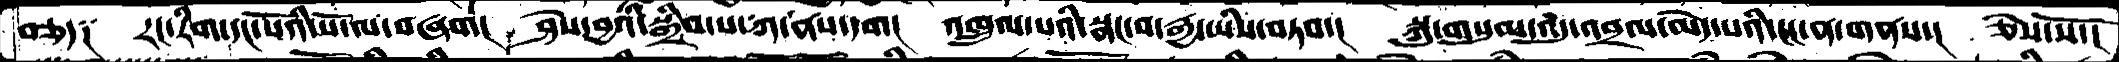བཅད༑  རང་རིག་དང་པོའི་སོ་ལ་བཞག།  ཤེས་བྱའི་སྒྲིབ་པ་ཀ་ནས་དག།  འཁྲུལ་པའི་སྣང་བ་རྒྱ་ཡིས་བཏབ་།  སྐུ་གསུམ་འདུ་འབྲལ་མེད་པའི་ངང་ན་གནས་།  ཅེས་སོ་།
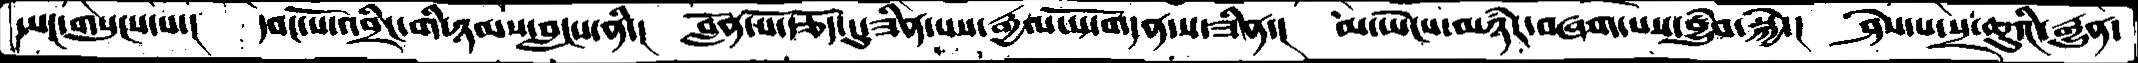ཡང་གསུངས་པ་།  དབང་པོ་འབྲིང་གི་ཉམས་བླངས་ནི་།  བློན་པོ་རྩོད་དུ་ཟིན་པས་རྒྱལ་པོ་གདན་ས་ཟིན་།  མ་ཡེངས་མཉཾར་བཞག་པས་བྱུཾབ་སྐྱེ་།  ཤེས་པ་སྲ་ཆུའི་རྒྱུན་
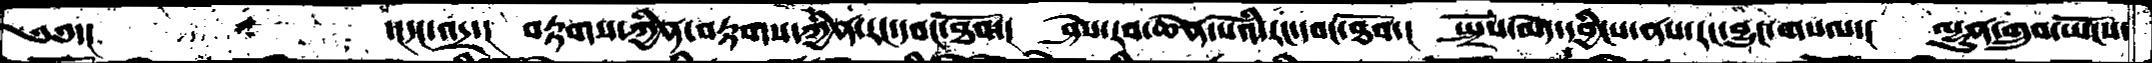༄༅་།       ་།དང་འདྲ་།  བརྟགས་ཀྱིན་བརྟགས་ཀྱིན་རང་དབང་ཐོབ་།   ཤེས་རབ་ཆེན་པོའི་རང་དབང་ཐོབ་།  སྤྲོས་མེད་དབྱིངས་ནས་རང་བྱུང་གསལ་།  ལྷུན་གྲུབ་ཡོངས་
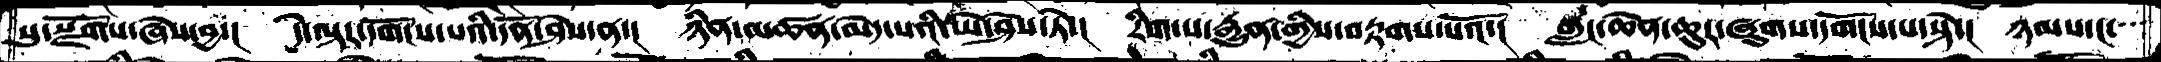སུ་སྫོགས་ཞེས་བྱ་།  དེ་ལྟར་དགོངས་པའི་དོན་ཤེས་ན་།  ཉིན་མཚན་མེད་པའི་ཡེ་ཤེས་ཏེ་།  རིག་པ་རྒྱུན་གྱིས་བརྟགས་པའོ་།  གླང་ཆེན་ཆུར་ཞུགས་དགོངས་པ་སྟེ་།  ཉམས་ང་
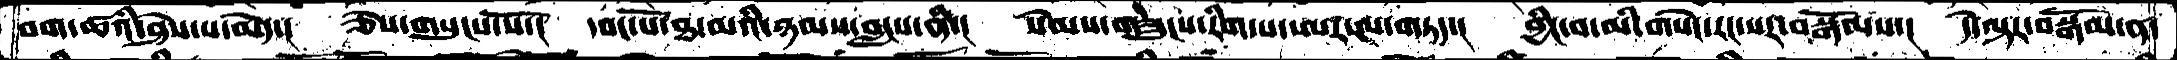བག་ཚའི་ཤེས་པ་མེད་།  ཅེས་གསུངས་སོ་།  དབང་པོ་ཐ་མའི་ཉམས་བླངས་ནི་།   སེམས་གཟུངས་རིག་པ་ཨར་ལ་གཏད་།  བྱིང་བ་མི་གསེང་རང་སར་བསྒོམས་།  དེ་ལྟར་བསྒོམ་ན་
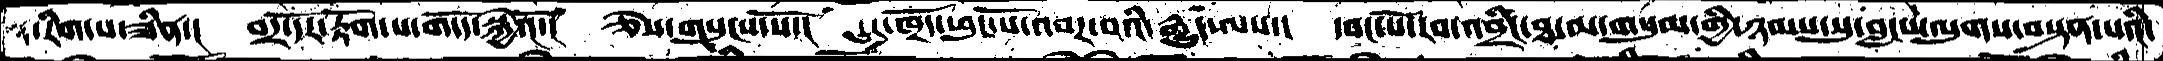རིག་པ་ཟིན་།  བར་དོར་རྟོག་པ་གདོད་སྐྱེའོ་།  ཅེས་གསུངས་སོ་།  དུར་ཁྲོད་ཕུང་པོ་འབར་བའི་རྒྱུད་ལས་།  དབང་པོ་རབ་འབྲིང་ཐ་མ་གསུམ་གྱི་ཉམས་སུ་བླངས་ལུགས་བསྟན་པའི་
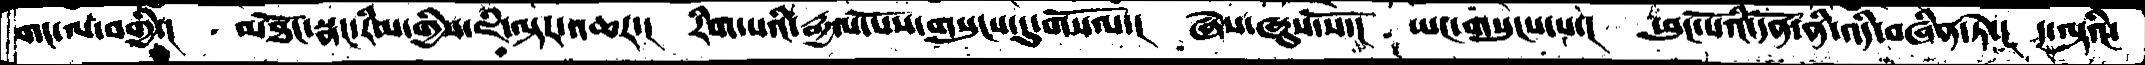གང་ལ་བགྱི་།   མཐོང་སྣང་རིམ་གྱིས་ཇི་ལྟར་འཆར་།  རིག་པའི་རྒྱལ་པོས་གསུངས་དུ་གསོལ་།  ཞེས་ཞུས་སོ་།  ཡང་གསུངས་པ་།  ཕུང་པོའི་དོན་ནི་འདི་བཞིན་ཏེ་།  ད་ལྟའི་
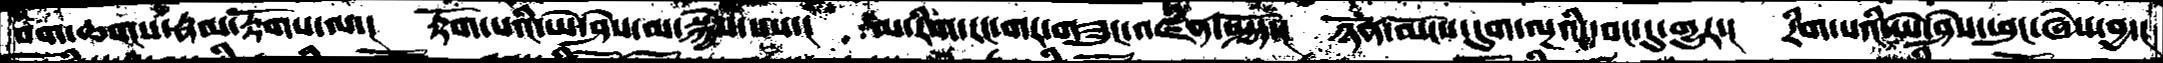བག་ཆགས་རྣམ་རྟོགས་ལ་།  རྟོག་པའི་ཡེ་ཤེས་མ་སྐྱེས་པས་།  མ་རིག་རང་གར་གཟུང་འཛིན་སྤྱོད་།  ཉོན་མོངས་དུག་ལྔའི་དབང་དུ་གྱུར་།  རིག་པའི་ཡེ་ཤེས་ཕུང་ཞེས་བྱ་།
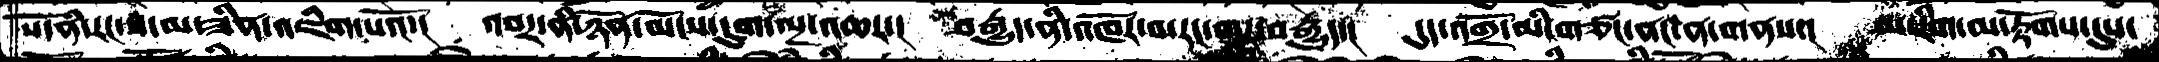སོ་ནི་རང་ཙ་མ་ཟིན་འཇིག་པའོ་།  འབར་ནི་ཉོན་མོངས་དུག་ལྔ་འཆར་།  བརྒྱུད་ནི་འཁོར་བ་རང་གར་བརྒྱུད་།  དུད་འགྲོ་མི་གཙང་ནང་ན་གནས་།  མ་རིག་མ་རྟོགས་དུས་
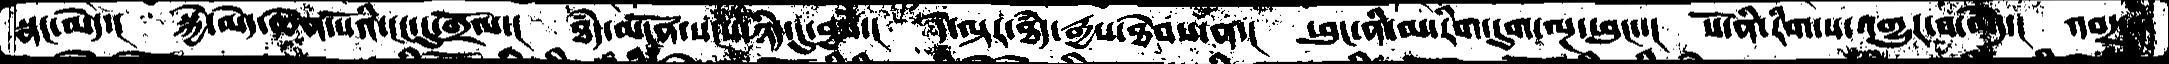སྣང་མེད་།    སྐྱེ་མེད་ཆེན་པོའི་ངང་དུ་གྲོལ་།   ཐཾད་མངོན་སངས་ཉིད་དུ་བྱས་།  དེ་ལྟར་ཐཾད་རྒྱས་ཐེབས་ན་།  ཕུང་ནི་མ་རིག་དུག་ལྔ་ཕུང་་།  སོ་ནི་རིག་པ་འགྱུར་བ་མེད་།  འབར་ནི་
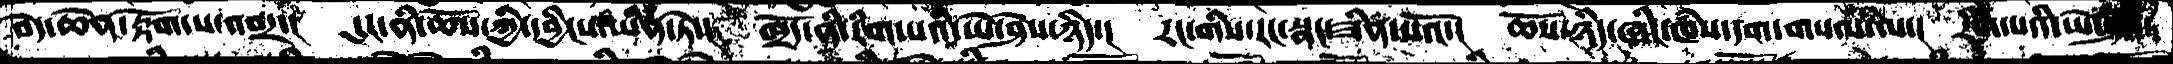བདེ་ཆེན་རྟོག་པ་འབར་།  དུར་ནི་ཆོས་ཀྱི་དབྱིངས་ཡིན་ཏེ་།  ཁྲོད་ནི་རིག་པའི་ཡེ་ཤེས་ཉིད་།  རང་གིས་རང་སྣང་ཟིན་པའོ་།  ཆོས་ཉིད་ཞིང་ཁཾས་དག་གསལ་ལ་།  རིག་པའི་ཡེ་ཤེས་
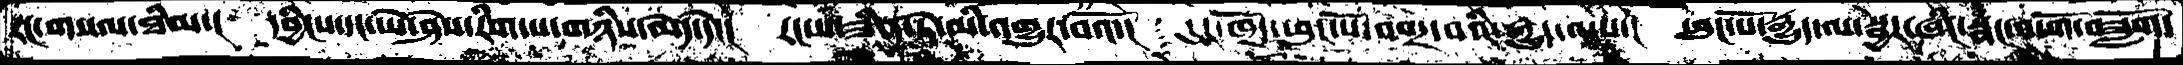རང་གསལ་ཐིམ་།  དབྱིངས་དང་ཡེ་ཤེས་རིག་པ་གཉིས་མེད་དེ་།  རང་ས་ཟིན་ཏེ་མི་འགྱུར་བའོ་།  དུར་ཁྲོད་ཕུང་པོ་འབར་བའི་རྒྱུད་ལས་། ཕུང་པོ་རྒྱུད་ལ་སྦྱར་ཞིང་སྣང་བ་གོ་བཟློག་་
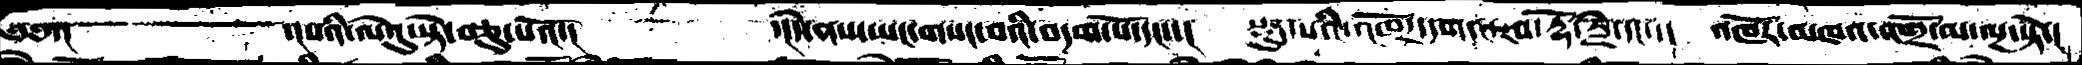༄༅་།     ་།པའི་ལེའུ་སྟེ་བཅུ་པའོ་།     ་།དེ་ནས་ཡང་གསང་བའི་བདག་པོ་དང་་།   སྡུད་པའི་འཁོར་དགའ་རབ་རྡོ་རྗེ་དང་་།  འཁོར་མཁའ་འགྲོ་མ་ལྔ་སྟེ་།
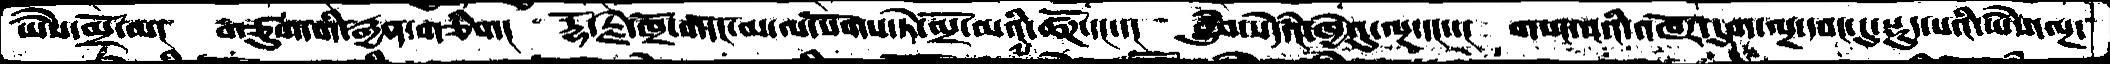ཡཻས་མྲོ་མ།  གཙུག་གི་རྒྱན་གཅིག།  རྡོ་རྗེ་ཁྲོ་གདོང་མ་ལ་སོགས་ཏེ་མྲོ་མའི་ཚོཌ་དང་་།  བྱུཾབ་སེདཾའ་ཁྱེའུ་ལྔ་དང་་།  གསང་བའི་འཁོར་དུག་ལྔ་དབང་དུ་སྡུད་པའི་ཡཻས་ལྔ་།
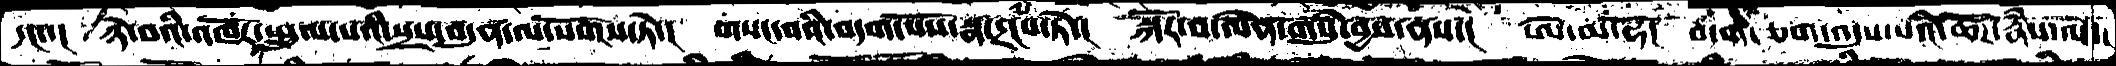དང་།  ཉེ་བའི་འཁོར་སྤྲུལ་པའི་སྲས་བདུན་ལ་སོགས་ཏེ་།  གསང་བའི་བདག་པོས་སྣ་དྲངས་ཏེ་།  སྐོར་བ་ལེན་གསུཾ་བྱས་ནས་།  ཨེ་མ་ཧོ།  བདག་ཅག་འདུས་པའི་ཚོཌ་རྣཾས་ལ་།
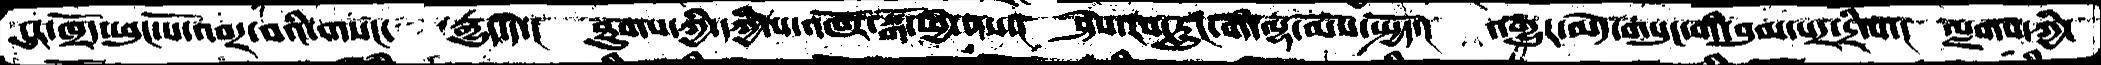དུར་ཁྲོད་ཕུང་པོ་འབར་བའི་གསང་  རྒྱུད་དེ་།  ཐུགས་ཀྱི་དཀྱིལ་འཁོར་སྒོ་ཕྱེ་ནས་།  ཤེས་རབ་རླུང་གི་ལྷ་མོས་སྤྱོད་།  འགྱུར་མེད་གསུང་གི་བུམ་པར་དྲིལ་།  ལྗགས་ཀྱི་
